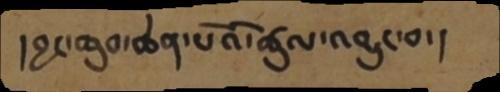།བྱང་ཆུབ་ཆེན་པོའི་ཚུལ་འབྱུང་བ་།
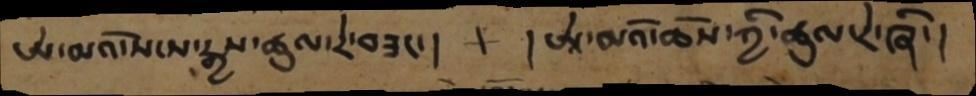ཨེ་མའོ་སངས་རྒྱས་ཚུལ་རེ་བཟང་།   ཨཱེ་མའོ་ཆོས་ཀྱི་ཚུལ་རེ་ཞི་།
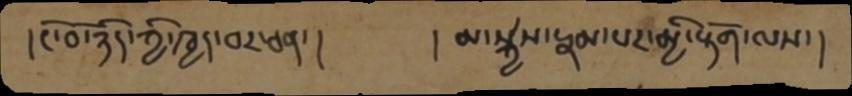།ངོ་བོ་ཉིད་ཀྱི་ཁྱད་པར་ཅན་།    །མ་སྐྱེས་རྣམ་པར་མྱི་རྟོག་ལས་།
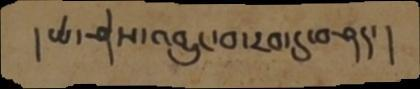།ཡེ་ཤེས་འབྱུང་བ་རབ་དུ་བཤད་།
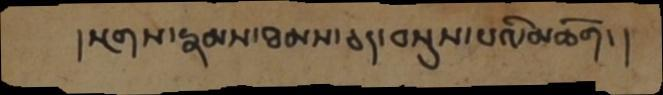།སྔགས་རྣམས་ཐམས་ཅད་བསྡུས་པའི་མཆོག་།
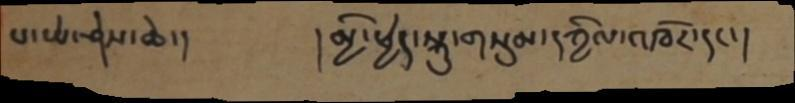པ་ཡེ་ཤེས་ཆེ་།  །མྱི་ཕྱེད་སྐུ་གསུམ་དཀྱིལ་འཁོར་དང་།
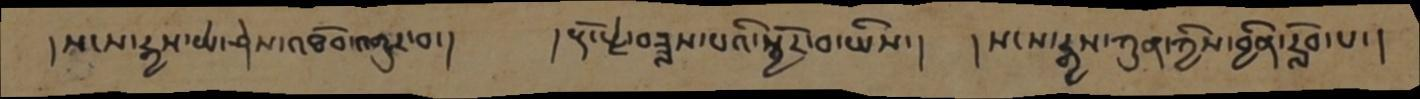།སངས་རྒྱས་ཡེ་ཤེས་འཐོབ་འགྱུར་བ་།  །རྡོ་རྗེ་བཟླས་པའི་སྦྱོར་བ་ཡིས་།  །སངས་རྒྱས་ཀུན་ཀྱིས་བྱིན་རློབ་པ་།
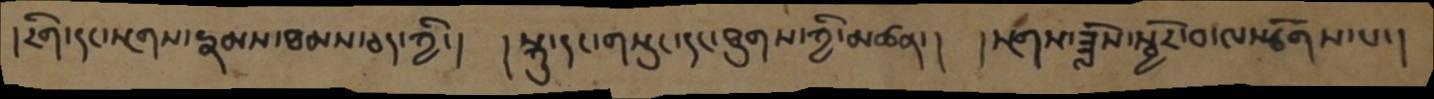།རིག་དང་སྔགས་རྣམས་ཐམས་ཅད་ཀྱི་།  །སྐུ་དང་གསུང་དང་ཐུགས་ཀྱི་མཚན་།  སྔགས་ཟློས་སྦྱོར་བ་ལསྩོགས་པ་།
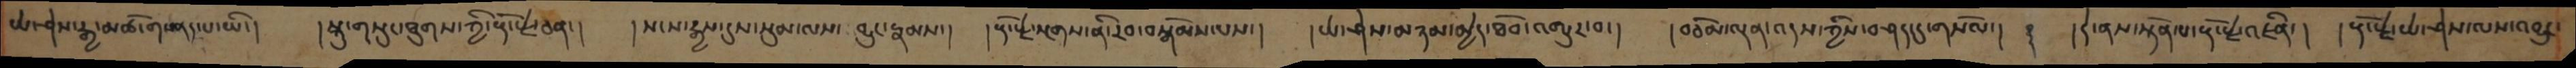ཡེ་ཤེས་རྒྱ་མཚོ་གསནད་པ་ཡི་།  །སྐུ་གསུང་ཐུགས་ཀྱི་རྡོ་རྗེ་ཅན་།  །སངས་རྒྱས་དུས་སུམ་ལས་བྱུང་རྣམས་།  །རྡོ་རྗེ་སྔགས་ནི་རབ་བསྒོམས་པས་།   །ཡེ་ཤེས་མཉམ་མྱེད་ཐོབ་འགྱུར་བ་།   །བཅོམ་ལྡན་འདས་ཀྱིས་བཤད་དུ་གསོལ་།   ༈  །དེ་ནས་སྟོན་པ་རྡོ་རྗེ་འཛིན་།  །རྡོ་རྗེ་ཡེ་ཤེས་ལས་འབྱུང་
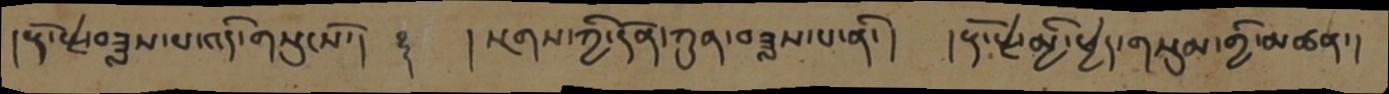།རྡོ་རྗེ་བཟླས་པ་འདི་གསུངསོ་།  ࿑  །སྔགས་ཀྱི་དོན་ཀུན་བཟླས་པ་ནི་།   །རྡོ་རྗེ་མྱི་ཕྱེད་གསུམ་གྱི་མཚན་།
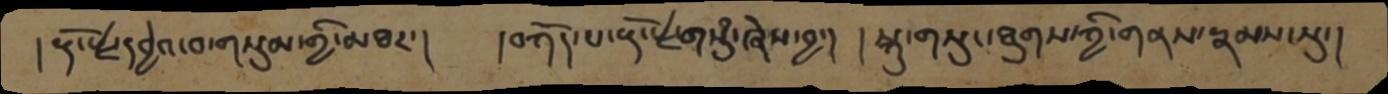།རྡོ་རྗེ་དབྱེའ་བ་གསུམ་གྱི་མཐར་།  །བཀོད་པ་རྡོ་རྗེ་གསུཾ་ཞེས་བྱ་།  །སྐུ་གསུང་ཐུགས་ཀྱི་གནས་རྣམས་སུ་།
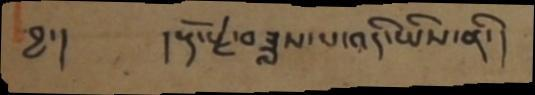བྱ་།    །རྡོ་རྗེ་བཟླས་པ་འདི་ཡིས་ནི་།
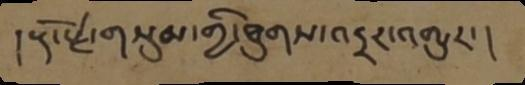།རྡོ་རྗེ་གསུམ་གྱི་ཐུགས་འདྲར་འགྱུར་།
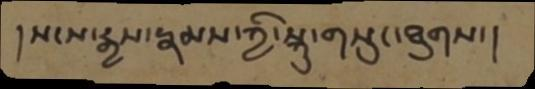།སངས་རྒྱས་རྣམས་ཀྱི་སྐུ་གསུང་ཐུགས་།
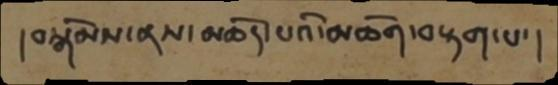།བསྒོམས་ནས་མཆོད་པའི་མཆོག་བརྟག་པ་།
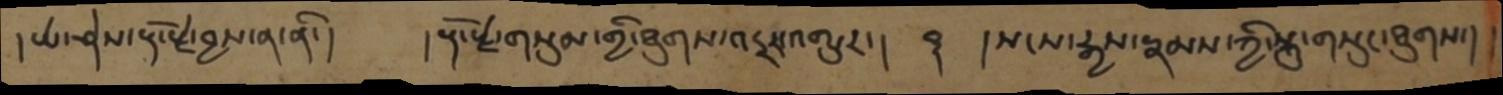།ཡེ་ཤེས་རྡོ་རྗེ་བྱས་ན་ནི་།  །རྡོ་རྗེ་གསུམ་གྱི་ཐུགས་འདྲར་འགྱུར་།   ༈  །སངས་རྒྱས་རྣམས་ཀྱི་སྐུ་གསུང་ཐུགས་།།
